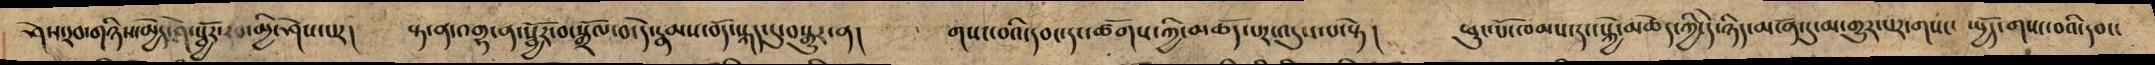ཤེས་རབ་གཉིས་མྱེད་ཤེ་སྦྱོར་རབ་མྱི་ཤེས་པར། སྟ་ན་འགྷ་ན་སྦྱོར་བ་སྒྲོལ་བ་དེ་རྣམས་བོད་སྐད་དུ་བསྒྱུར་ན། གསང་བའི་དབང་དང་ཚོགས་ཀྱི་མཆོད་པར་འདུས་པ་སྟེ། ཕུང་པོ་ཁམས་དང་སྐྱེ་མཆེད་ཀྱི་དེ་ཉིད་མངོན་དུ་མ་གྱུར་པར་གསང་ སྤྱོད་གསང་བའི་དབང་
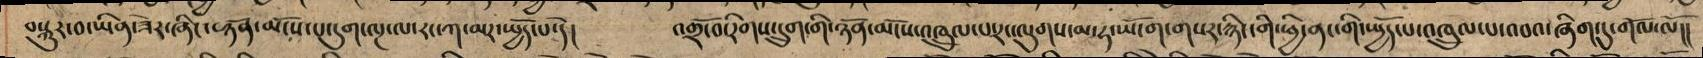བསྐུར་བ་ཡིན་ཟེར་ཞིང་ཉོན་མོངས་པ་དུག་ལྔ་ལ་རང་ཀ་མར་སྤྱོད་པ་དེ། འགྲོ་བ་རིགས་དྲུག་གི་ཉོན་མོངས་འཁྲུལ་པ་རང་ལུགས་མ་ཧ་ཡོ་ག་གསར་རྙིང་གི་ཕྱི་ནང་གི་སྤྱོད་པ་འཁྲུལ་པ་འབའ་ཞིག་དུ་གོལ་ལོ།།
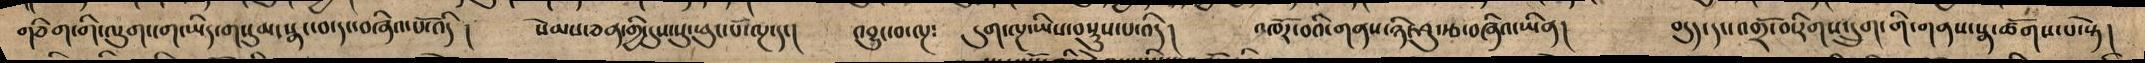གཅིག་གི་ལུག་ངག་ཡིད་གསུམ་སྣང་བ་དང་བཞིའ་པོ་འདི། སེམས་ཅན་གྱི་ཕུང་པོ་ལྔ་དང། འབྱུང་བ་ལྔ༴ དུག་ལྔ་ཡིས་བསྡུས་པ་འདི། འཁོར་བའི་གནས་ཉི་ཤུ་རྩ་བཞིའ་ཡིན། བདུད་དང་འགྲོ་བ་རིགས་དྲུག་གི་གནས་སྣ་ཚོགས་པ་སྟེ།
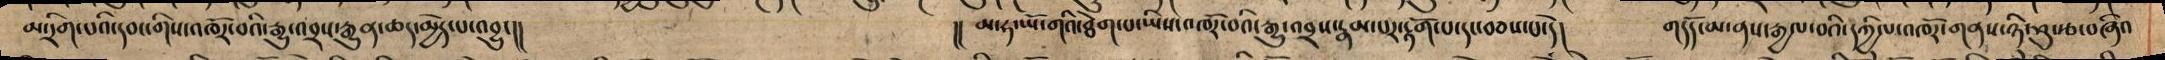མ་རིག་པའི་དབང་གིས་འཁོར་བའི་རྒྱུ་འབྲས་རྒྱུན་ཆད་མྱེད་པ་འབྱུང།། །། མ་ཧ་ཡོ་གའི་ཐེག་པ་ཡིས་འཁོར་བའི་རྒྱུ་འབྲས་རྣམ་པར་རྟོག་པ་དང་བཅས་པ་དེ། གདོད་མ་ནས་རྒྱལ་བའི་དཀྱིལ་འཁོར་གནས་ཉི་ཤུ་རྩ་བཞིའ
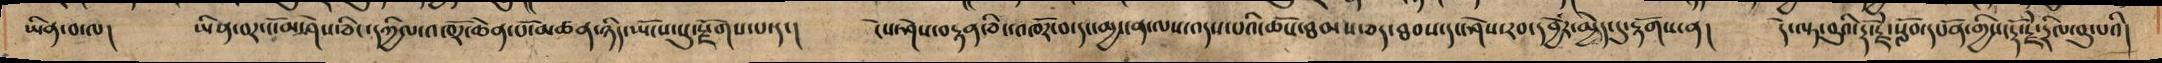ཡིན་བ་ལ། ཡིན་བར་མ་ཤེས་ཅིང་དཀྱིལ་འཁོར་ཆེན་པོ་མཚན་ཉིད་ཡོངས་སུ་སྫོགས་པ་དང། ངེས་ཤེས་བརྟན་ཅིང་འཁོར་བ་དང་མྱ་ངན་ལས་འདས་པའི་ཆོས་ཐམས་ཅད་ཐབས་དང་ཤེས་རབ་དབྱེར་མྱེད་དུ་རྟོགས་ན། དེ་ལྟ་བུའི་རྡོ་རྗེ་སློབ་དཔོན་གྱིས་རྡོ་རྗེ་དྲིལ་བུ་པའི།
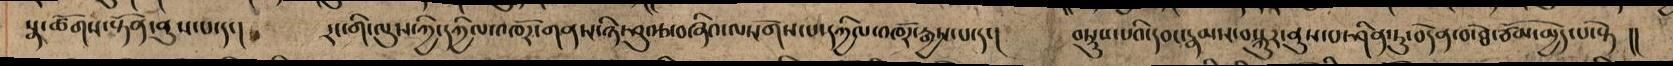སྣ་ཚོགས་སྟོན་ནུས་པ་དང། རང་གི་ལུས་ཀྱི་དཀྱིལ་འཁོར་གནས་ཉི་ཤུ་རྩ་བཞིའ་ལསོགས་པ་དཀྱིལ་འཁོར་རྒྱས་པ་དང། བསྡུས་པའི་དབང་རྣམས་བསྐུར་ནུས་པ་ཤིན་ཏུ་བདེན་བ་ཐེ་ཙོམ་མྱེད་པ་སྟེ །།
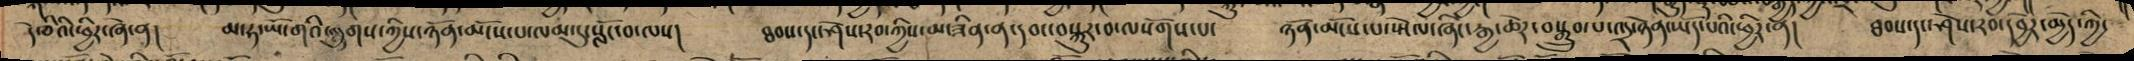དེ་ཅིའི་ཕྱིར་ཞེ་ན། མ་ཧ་ཡོ་གའི་ལུགས་ཀྱིས་ཉོན་མོངས་པ་ལམ་དུ་སློང་བ་ལས། ཐབས་དང་ཤེས་རབ་ཀྱིས་མ་ཟིན་ན་དབང་བསྐུར་བ་ལསོགས་པ་ ཉོན་མོངས་པ་སྤེལ་ཞིང་རྒྱ་ཆེར་བསྒྲུབ་པ་འདྲ་ཉེན་ཡོད་པའི་ཕྱིར་ན། ཐབས་དང་ཤེས་རབ་དབྱེར་མྱེད་ཀྱི་
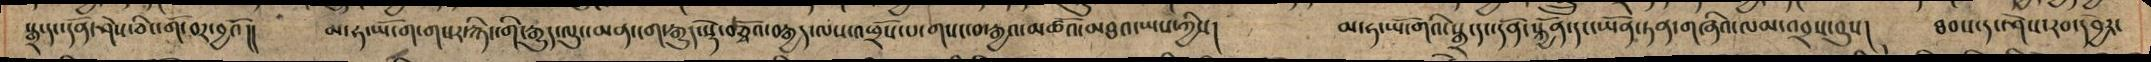སྒྲ་དང་དོན་ཤེས་ཅིང་གོ་བར་བྱའོ།། མ་ཧ་ཡོ་ག་གསར་རྙིང་གི་རྒྱུད་ལུང་མན་ངག་རྒྱུད་སྡེ་བཅྭོའ་བརྒྱད་ལས་འཕྲོས་པ་གསང་བ་རྒྱའ་མཚོའ་མཐའ་ཡས་ཀྱིས། མ་ཧ་ཡོ་གའི་སྒྲ་དང་དོན་སྐྱོན་དང་ཡོན་ཏན་གཞིའ་ལམ་འབྲས་བུས། ཐབས་དང་ཤེས་རབ་དབྱེར་
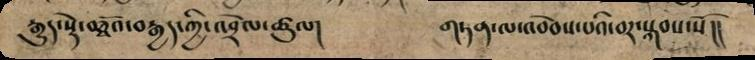རྒྱུད་སྡེ་བཅྭོའ་བརྒྱད་ཀྱི་འབྲེལ་ཚུལ། གཏན་ལ་འབེབས་པའི་བར་སྐབས་སོ།།
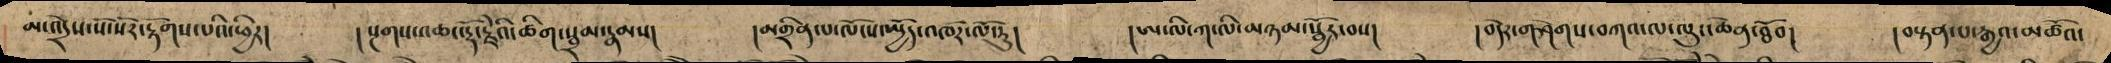མ་འདྲེས་སོ་སོར་རྟོགས་པའི་ཕྱིར། །སྔགས་འཆང་རྡོ་རྗེའི་ཚིག་སྦྲམ་རྣམས། །མགྲིན་པ་ལོངས་སྤྱོད་འཁོར་ལོ་རུ། །ཨ ལི་ཀ་ལི་མཉམ་སྦྱོར་བས། །བདེར་གཤེགས་བཀའ་ལ་ལུང་ཆེན་ཐོབ། །བསྟན་པ་རྒྱའ་མཚོའ་
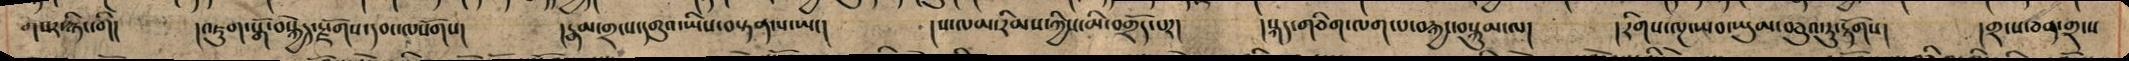གསར་རྙིང་གི། །འཇུག་སྒོ་བསྐྱེད་སྫོགས་དབང་ལསོགས། །རྣམ་གྲངས་དགུའ་ཡིས་བསྟན་པ་ཡང། །ས་ལམ་རིམས་ཀྱིས་མི་བགྲོད་པར། །སྐད་གཅིག་ལག་པ་བརྐྱང་བསྐུམ་ལ། །རོགས་ལྔ་ཡབ་ཡུམ་བཅུའ་རུ་རྟོགས། །གྲངས་ཅན་གྲངས
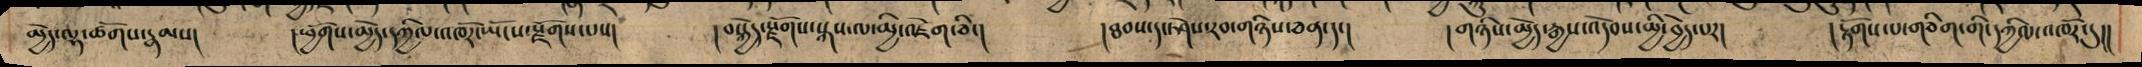མྱེད་ལྷ་ཚོགས་རྣམས། །ཕྱོགས་མྱེད་དཀྱིལ་འཁོར་ཡོངས་སྫོགས་པས། །བསྐྱེད་སྫོགས་སྐས་ལ་མྱི་འཛེག་ཅིང། །ཐབས་དང་ཤེས་རབ་གཉིས་ཅན་དང། གཉིས་མྱེད་རྒྱས་འདེབས་མྱི་བྱེད་པར། །རྟོགས་པ་གཅིག་གི་དཀྱིལ་འཁོར་དུ།།
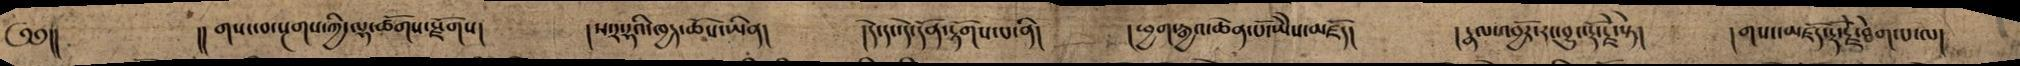༄༅།། །།གསང་བ་སྔགས་ཀྱི་ལྷ་ཚོགས་སྫོགས། །ས་ར་ཧའི་ཁྱད་ཆོས་ཡིན། །དེ་དང་དེ་དོན་རྟོགས་པ་ནི། །ཕྱག་རྒྱའ་ཆེན་པོ་ཡཻས་མཛོད། །རྣལ་འབྱོར་རང་བྱུང་རྡོ་རྗེ་སྟེ། །གསང་མཛོད་རྡོ་རྗེ་ཐེག་པ་ལ།
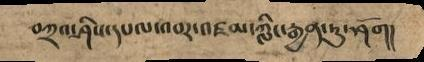བཀྲའ་ཤིས་དཔལ་འབར་འཛམ་ཀླིང་རྒྱན་ཏུ་ཤོག།
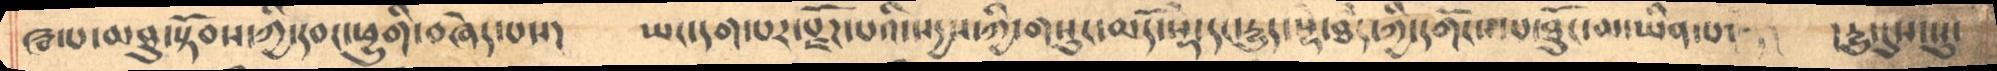ཝ་པ་མཐུ་སྟོབས་ཀྱི་དབང་ཕྱུགི་བཞེད་པས་། ཡང་དག་པར་སྫོཌ་པའི་སདྱས་ཀྱི་གསུང་མདོ་སྡེ་་དང་དྱུད་སྡེ་ཐདཾ་ཀྱི་དགོངས་པ་ཐུངོ་མ་ཡིན་པ་། །དྱུ་དུས་སུ་
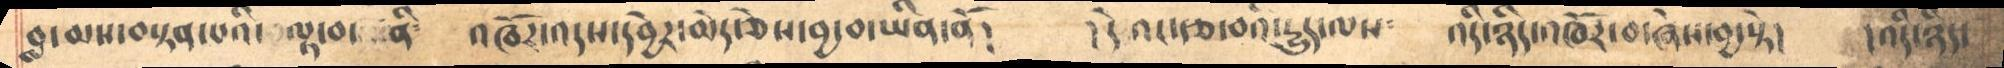བླ་མས་བསྟན་པའི་ལྟ་བ་ནི། འཁོར་འདས་དབྱེར་མེད་ཅེས་བྱ་བ་ཡིན་ནོ།  །དེ འང་རྩ་བའི་དྱུད་ལས༴ འདི་ཉིད་འཁོར་བ་ཞེས་བྱ་སྟེ། །འདི་ཉིད་
